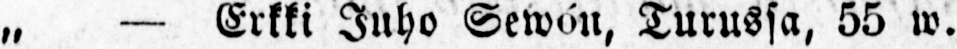„ — Erkki Juho Sewón, Turussa, 55 w.
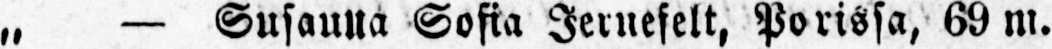„ — Susauua Sofia Jernefelt, Porissa, 69 w.
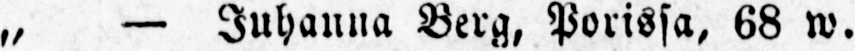„ — Juhanna Berg, Porissa, 68 w.
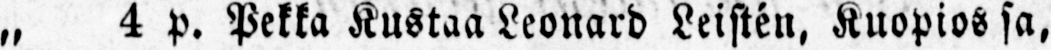„ 4 p. Pekka Kustaa Leonard Leistén, Kuopios sa,
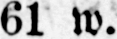61 w.
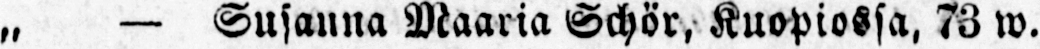„ — Susanna Maaria Schör, Kuopiossa, 73 w.
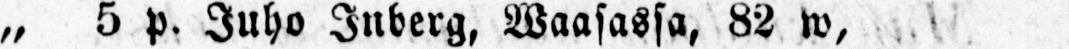„ 5 p. Juho Inberg, Waasassa, 82 w,
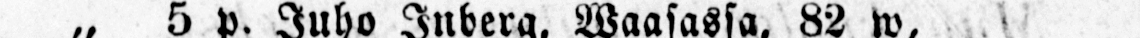" - Riitta Kaisa Pekkarinen. Pielawedellä,
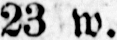23 w.
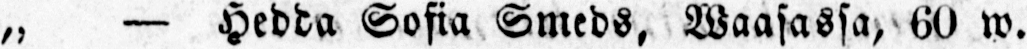„ — Hedda Sofia Smeds, Waasassa, 60 w.
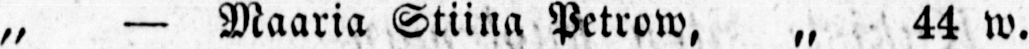„ — Maaria Stiina Petrow, „ 44 w.
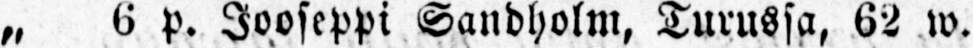„ 6 p. Jooseppi Sandholm, Turussa, 62 w.
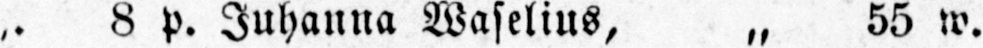.. 8 P. Juhanna Waselius, „ 55 w.
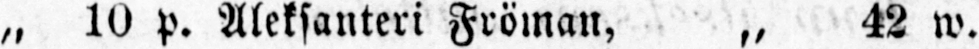„ 10 p. Aleksanteri Fröman, „ 42 w.
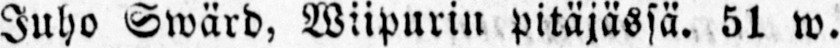Juho Swärd, Wiipurin pitäjässä. 51 w.
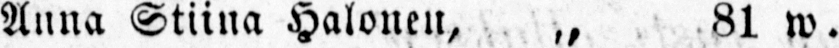Anna Stiina Halonen, „ 81 w.
